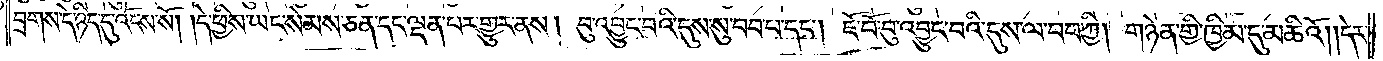བྲགས་དེ་ཉིད་དུ་འོངས་སོ། །དེ་ཕྱིས་ཡང་སེམས་ཅན་དང་ལྡན་པར་གྱུར་ནས། བུ་འབྱུང་བའི་དུས་སུ་བབ་པ་དང༌། ཇོ་བོ་བུ་འབྱུང་བའི་དུས་ལ་བབ་ཀྱི། གཉེན་གྱི་ཁྱིམ་དུ་མཆིའོ། །དེར་
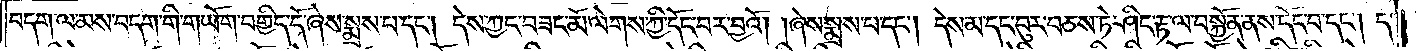བདག་ལ་མས་བདག་གི་གཡོག་བགྱིད་དོ་ཞེས་སྨྲས་པ་དང༌། དེས་ཀྱང་བཟང་མོ་ལེགས་ཀྱི་དོང་བར་བྱའོ། །ཞེས་སྨྲས་པ་དང༌། དེས་མ་དང་བུར་བཅས་ཏེ་ཤིང་རྟ་ལ་བསྐྱོན་ནས་དོང་བ་དང༌། དེ་
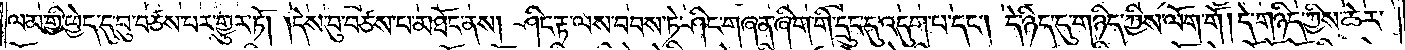ལམ་གྱི་ཕྱེད་དུ་བུ་བཙས་པར་གྱུར་ཏོ། །དེས་བུ་བཙས་པ་མཐོང་ནས། ཤིང་རྟ་ལས་བབས་ཏེ་ཤིང་གཞན་ཞིག་གི་དྲུང་དུ་འདུག་པ་དང༌། དེ་ཉིད་དུ་གཉིད་ཀྱིས་ལོག་གོ། །དེ་གཉིད་ཀྱིས་ཆེར་
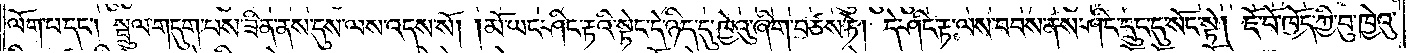ལོག་པ་དང༌། སྦྲུལ་གདུག་པས་ཟིན་ནས་དུས་ལས་འདས་སོ། །མོ་ཡང་ཤིང་རྟའི་སྟེང་དེ་ཉིད་དུ་ཁྱེའུ་ཞིག་བཙས་ཏེ། དེ་ཤིང་རྟ་ལས་བབས་ནས་ཤིང་དྲུང་དུ་སོང་སྟེ། ཇོ་བོ་ཁྱོད་ཀྱི་བུ་ཁྱེའུ་
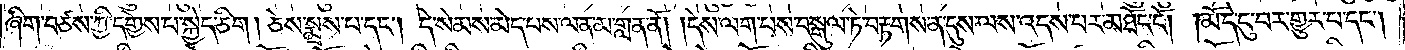ཞིག་བཙས་ཀྱི་དགྱེས་པ་སྐྱེད་ཅིག། ཅེས་སྨྲས་པ་དང༌། དེ་སེམས་མེད་པས་ལན་མ་གླན་ནོ། །དེས་ལག་པས་བསྐུལ་ཏེ་བརྟགས་ན་དུས་ལས་འདས་པར་མཐོང་ངོ༌། །མོ་དེ་ངུ་བར་གྱུར་པ་དང༌།
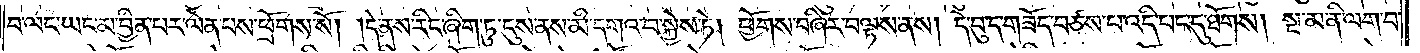བ་ལང་ཡང་མ་བྱིན་པར་ལེན་པས་ཕྲོགས་སོ། །དེ་ནས་རིང་ཞིག་ཏུ་དུས་ནས་མི་དགའ་བ་སྐྱེས་ཏེ། ཕྱོགས་བཞིར་བལྟས་ནས། དེ་བུ་ད་གཟོད་བཙས་པ་འདི་པང་དུ་ཐོགས། སྔ་མ་ནི་ལག་པ་
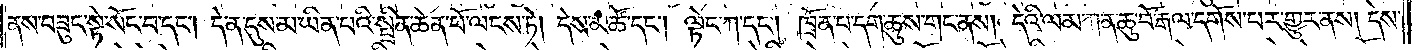ནས་བཟུང་སྟེ་སོང་བ་དང༌། དེ་ན་དུས་མ་ཡིན་པའི་སྤྲིན་ཆེན་པོ་ལངས་ཏེ། དེས་མཚོ་དང༌། ལྟེང་ཀ་དང༌། ཁྲོན་པ་དག་ཆུས་གང་ནས། དེའི་ལམ་ཀ་ན་ཆུ་བོ་རྒལ་དགོས་པར་གྱུར་ནས། དེས་
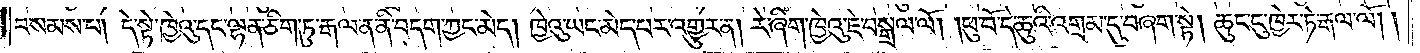བསམས་པ། དེ་སྟེ་ཁྱེའུ་དང་ལྷན་ཅིག་ཏུ་རྒལ་ན་ནི་བདག་ཀྱང་མེད། ཁྱེའུ་ཡང་མེད་པར་འགྱུར་ན། རེ་ཞིག་ཁྱེའུ་ཇེ་བསྒྲལ་ལོ། །ཕུ་བོ་དེ་ཆུའི་འགྲམ་དུ་བཞག་སྟེ། ཆུང་དུ་ཁྱེར་ཏེ་རྒལ་ལོ། །
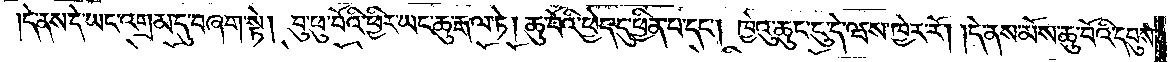དེ་ནས་དེ་ཡང་འགྲམ་དུ་བཞག་སྟེ། བུ་ཕུ་བོའི་ཕྱིར་ཡང་ཆུ་རྒལ་ཏེ། ཆུ་བོའི་ཕྱེད་དུ་ཕྱིན་པ་དང༌། ཁྱེའུ་ཆུང་དུ་དེ་ཝས་ཁྱེར་རོ། །དེ་ནས་མོས་ཆུ་བོའི་དབུས་
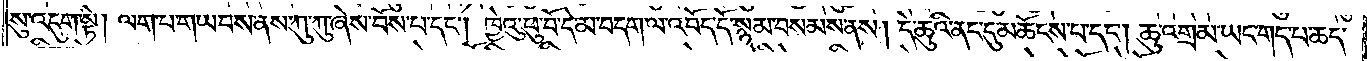སུ་འདུག་སྟེ། ལག་པ་གཡབས་ནས་ཀུ་ཀུ་ཞེས་བོས་པ་དང༌། ཁྱེའུ་ཕུ་བོ་དེ་མ་བདག་ལ་འབོད་དོ་སྙམ་བསམས་ནས། དེ་ཆུའི་ནང་དུ་མཆོངས་པ་དང༌། ཆུ་འགྲམ་ཡང་གད་པ་ཆད་
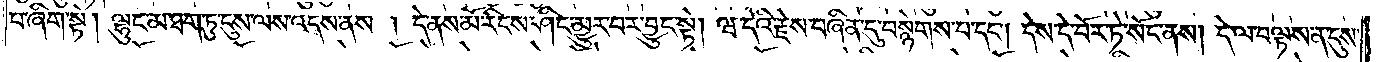པ་ཞིག་སྟེ། ལྷུང་མ་ཐག་ཏུ་དུས་ལས་འདས་ནས། དེ་ནས་མོ་རིངས་ཤིང་མྱུར་བར་བྱུང་སྟེ། ཝ་དེའི་རྗེས་བཞིན་དུ་བསྙེགས་པ་དང༌། དེས་དེ་བོར་ཏེ་སོང་ནས། དེ་ལ་བལྟས་ན་དུས་
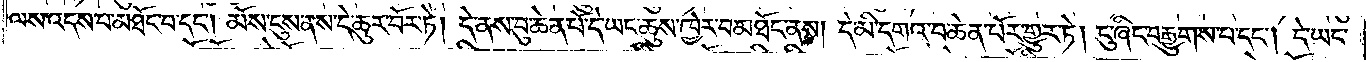ལས་འདས་པ་མཐོང་བ་དང༌། མོས་ངུས་ནས་དེ་ཆུར་བོར་ཏེ། དེ་ནས་བུ་ཆེན་པོ་དེ་ཡང་ཆུས་ཁྱེར་བ་མཐོང་ནས། དེ་མི་དགའ་བ་ཆེན་པོར་གྱུར་ཏེ། ངུ་ཞིང་བརྒྱུགས་པ་དང༌། དེ་ཡང་
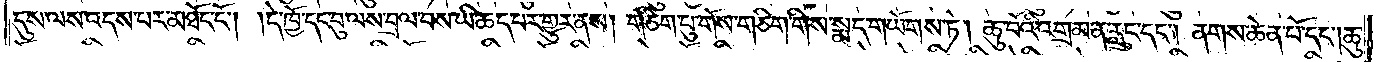དུས་ལས་འདས་པར་མཐོང་ངོ༌། །དེ་ཁྱོ་དང་བུ་ལས་བྲལ་བས་ཡི་ཆད་པར་གྱུར་ནས། གཅིག་པུ་གོས་གཅིག་གིས་སྨད་གཡོགས་ཏེ། ཆུ་བོའི་འགྲམ་ན་རླུང་དང༌། ནགས་ཆེན་པོ་དང༌། ཆུ་
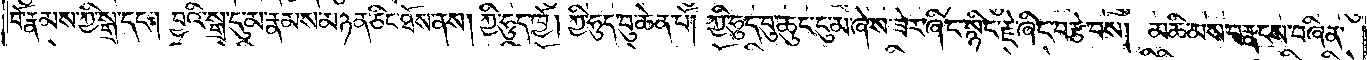བོ་རྣམས་ཀྱི་སྒྲ་དང༌། བྱའི་སྒྲ་དུ་མ་རྣམས་མཉན་ཅིང་ཐོས་ནས། ཀྱི་ཧུད་ཁྱོ། ཀྱི་ཧུད་བུ་ཆེན་པོ། ཀྱི་ཧུད་བུ་ཆུང་ངུ་མ་ཞེས་ཟེར་ཞིང་སྙིང་རྗེ་ཞིང་བརྩེ་བས། མཆི་མས་བརྣངས་བཞིན་
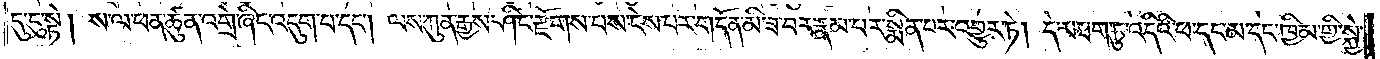དུ་ངུ་སྟེ། ས་ལ་ཕན་ཚུན་འགྲེ་ཞིང་འདུག་པ་དང༌། ལས་ཀུན་རྒྱས་ཤིང་རྫོགས་པས་ངེས་པར་གདོན་མི་ཟ་བར་རྣམ་པར་སྨིན་པར་འགྱུར་ཏེ། དེ་མ་ཐག་ཏུ་འདིའི་ཕ་དང་མ་དང་ཁྱིམ་གྱི་སྐྱེ་
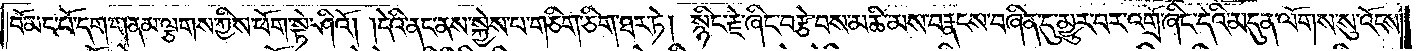བོ་མང་པོ་དག་གནམ་ལྕགས་ཀྱིས་ཕོག་སྟེ་ཤིའོ། །དེའི་ནང་ནས་སྐྱེས་པ་གཅིག་ཅིག་ཐར་ཏེ། སྙིང་རྗེ་ཞིང་བརྩེ་བས་མཆི་མས་བརྣངས་བཞིན་དུ་མྱུར་བར་འགྲོ་ཞིང་དེའི་མདུན་ལོགས་སུ་འོངས་
